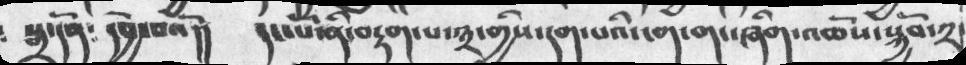སྒྲ་དོན༴  དབྱེ་བའོ།།  དང་པོ་ནི་བརྟག་པ་༣་གྱིས་དག་པའི་ངག་གང་ཞིག་འཆོས་སྐྱོབ་༢་
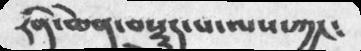རིན་ཆེན་བསྡུད་པ་ལས་ཀྱང༴
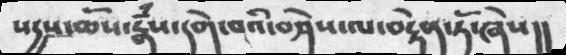སདྱས་ཆོས་རྣཾས་དགེ་བའི་བཤེས་ལ་བརྟེན་ཏོ་ཞེས།།
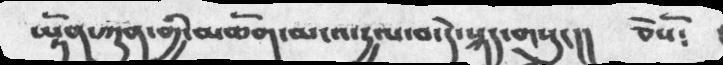ཡྟོན་ཀུན་གྱི་མཆོག་མངའ་དྱལ་བ་དེ་སྐད་གསུང།།   ཅེསོ༴
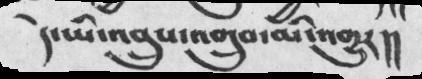དེ་ཡི་འབྲུས་འགྲུབ་མི་འགྱུར།།
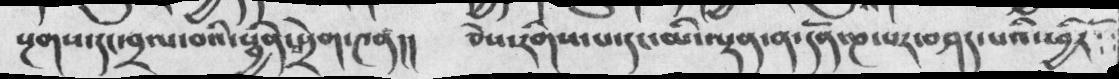སྔགས་དང་བྲལ་བའི་སྦྱིན་བསྲེག་༤ན།།  ཅེས་རིགས་པ་དང་མི་ལྡན་ན་དོན་ཎ་པར་བཤད་པའི་ཕྱིརོ༴༴
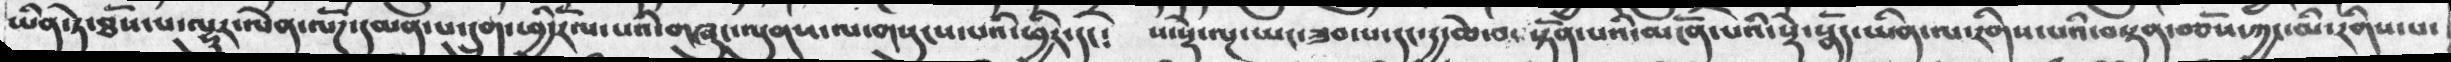ཡིན་ཏེ་ཐོས་པ་ལྷུར་ལེན་ལོཌ་དམན་པ་དྲུག་ཕྱིརོལ་པའི་གཞུང་ལུགས་ལ་གསུངས་པའི་ཕྱིར་དང༴  པ་སྡེ་ལྔ་ཡང་ཟབ་པ་དང་དྱ་ཆེ་བ་སྟོན་པའི་མངོན་པའི་སྡེ་སྣོད་ཡིན་ལ་རིགས་པའི་བསྟན་བཅོས་ཀྱང་མི་རིགས་པ་
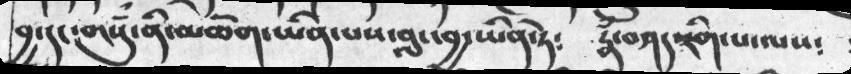བྱ་དང་གསུཾ་ནི་མཆོག་ཡིན་པས་བླ་བྱ་ཡིན་ཏེ༴  རྣཾ་བཤད་རིག་པ་ལས༴
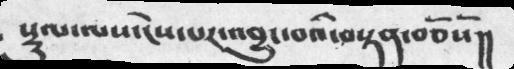སྡུལ་ལས་ངེས་པར་འབྱུང་བའི་བསྟན་བཅོསོ།།
